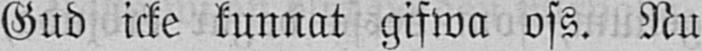Gud icke kunnat gifwa oss. Nu
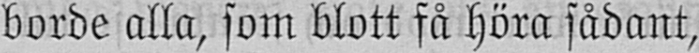borde alla, som blott få höra sådant,
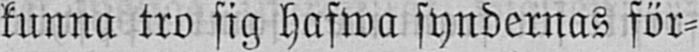kunna tro sig hafwa syndernas för-
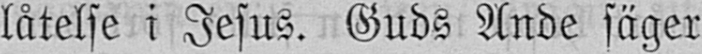låtelse i Jesus. Guds Ande säger
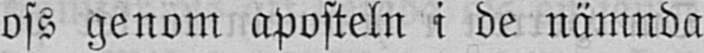oss genom aposteln i de nämnda
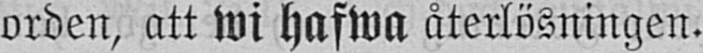orden, att Wi hafwa återlösningen.
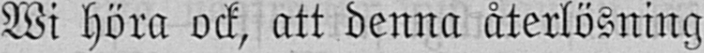Wi höra ock, att denna återlösning
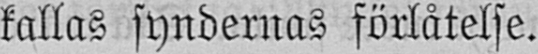kallas syndernas förlåtelse.
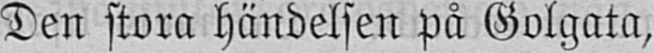Den stora händelsen på Golgata,
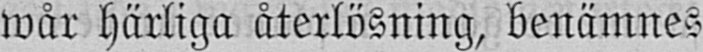wår härliga återlösning, benämnes
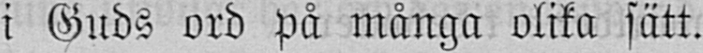i Guds ord På många olika sätt.
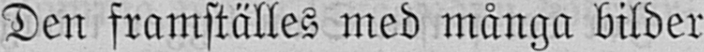Den framställes med många bilder
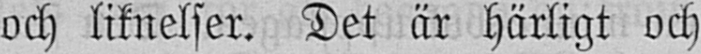och liknelser. Det är härligt och
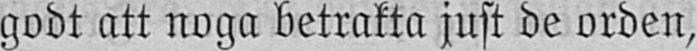godt att noga betrakta just de orden,
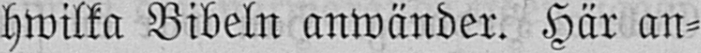hwilka Bibeln anwänder. Här an-
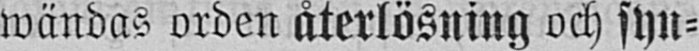wändas orden återlösning och syn-
